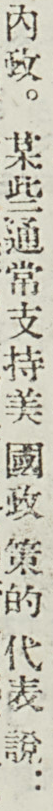內政。某些通常支持美 國政 策的 代表 說：
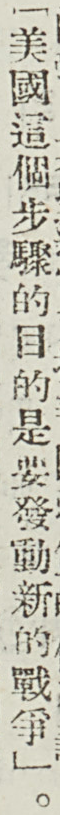「美國這個步驟的目的是要發動新的戰爭」。
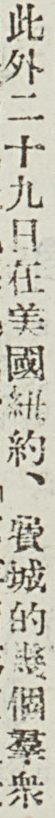此外二十九日在美國紐約、費城的幾個羣衆
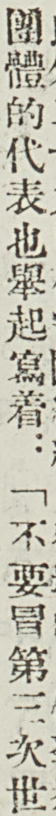團體的代表也舉起寫着：「不要冒第三次世
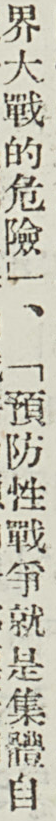界大戰的危險」、「預防性戰爭就是集體自
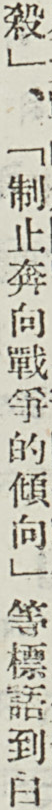殺」、「致直奔向戰爭的傾向」等標語到白
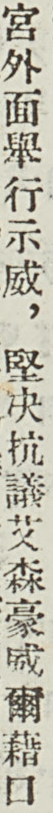宮外面舉行示威，堅決抗議艾森豪威爾藉口
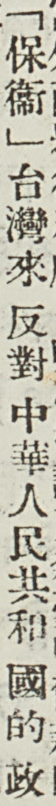「保衛」台灣來 反對 中華人民共和 國的 政
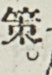策。
